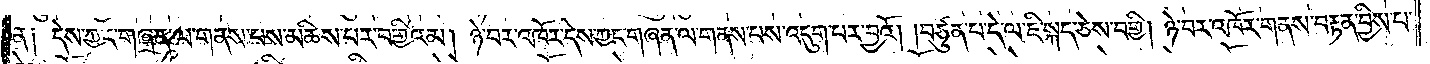ན༏ དེས་ཀྱང་གཞན་ལ་གནས་པས་མཆིས་པར་བགྱིའམ། ཉེ་བར་འཁོར་དེས་ཀྱང་གཞན་ལ་གནས་པས་འདུག་པར་བྱའོ། །བཙུན་པ་དེ་ལ་ཇི་སྐད་ཅེས་བགྱི། ཉེ་བར་འཁོར་གནས་བརྟན་བྱིས་པ་
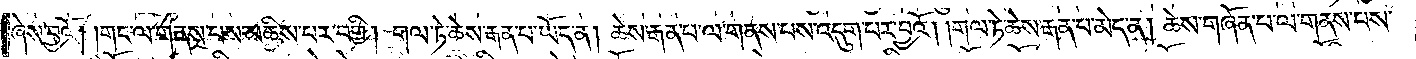ཞེས་བྱའོ། །གང་ལ་གནས་པས་མཆིས་པར་བགྱི། གལ་ཏེ་ཆེས་རྒན་པ་ཡོད་ན། ཆེས་རྒན་པ་ལ་གནས་པས་འདུག་པར་བྱའོ། །གལ་ཏེ་ཆེས་རྒན་པ་མེད་ན། ཆེས་གཞོན་པ་ལ་གནས་པས་
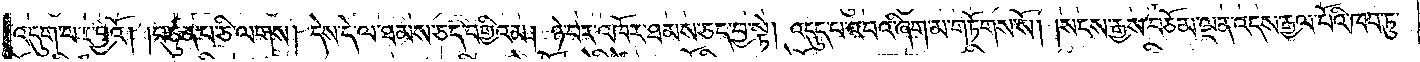འདུག་པར་བྱའོ། །བཙུན་པ་ཅི་ལགས། དེས་དེ་ལ་ཐམས་ཅད་བགྱིའམ། ཉེ་བར་འཁོར་ཐམས་ཅད་བྱ་སྟེ། འདུད་པ་འབའ་ཞིག་མ་གཏོགས་སོ། །སངས་རྒྱས་བཅོམ་ལྡན་འདས་རྒྱལ་པོའི་ཁབ་ཏུ་
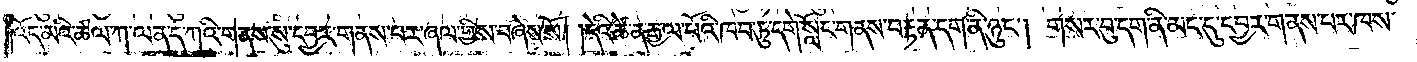འོད་མའི་ཚལ་ཀ་ལན་དཀའི་གནས་སུ་དབྱར་གནས་པར་ཞལ་གྱིས་བཞེས་སོ། །དེའི་ཚེ་ན་རྒྱལ་པོའི་ཁབ་ཏུ་དགེ་སློང་གནས་བརྟན་དག་ནི་ཉུང༌། གསར་བུ་དག་ནི་མང་དུ་དབྱར་གནས་པར་ཁས་
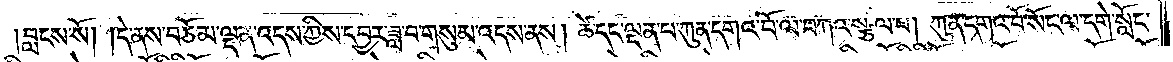བླངས་སོ། །དེ་ནས་བཅོམ་ལྡན་འདས་ཀྱིས་དབྱར་ཟླ་བ་གསུམ་འདས་ནས། ཚེ་དང་ལྡན་པ་ཀུན་དགའ་བོ་ལ་བཀའ་སྩལ་པ། ཀུན་དགའ་བོ་སོང་ལ་དགེ་སློང་
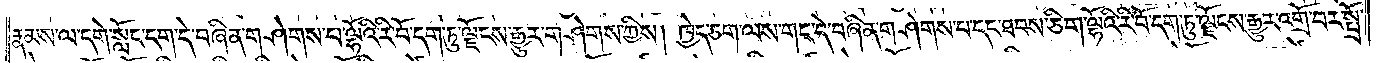རྣམས་ལ་དགེ་སློང་དག་དེ་བཞིན་གཤེགས་པ་ལྷོའི་རི་བོ་དག་ཏུ་ལྗོངས་རྒྱུར་གཤེགས་ཀྱིས། ཁྱེད་ཅག་ལས་གང་དེ་བཞིན་གཤེགས་པ་དང་ཐབས་ཅིག་ལྷོའི་རི་བོ་དག་ཏུ་ལྗོངས་རྒྱུར་འགྲོ་བར་སྤྲོ་
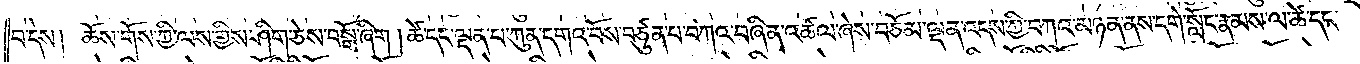བ་དེས། ཆོས་གོས་ཀྱི་ལས་གྱིས་ཤིག་ཅེས་བསྒོ་ཞིག །ཚེ་དང་ལྡན་པ་ཀུན་དགའ་བོས་བཙུན་པ་བཀའ་བཞིན་འཚལ་ཞེས་བཅོམ་ལྡན་འདས་ཀྱི་བཀའ་མཉན་ནས་དགེ་སློང་རྣམས་ལ་ཚེ་དང་
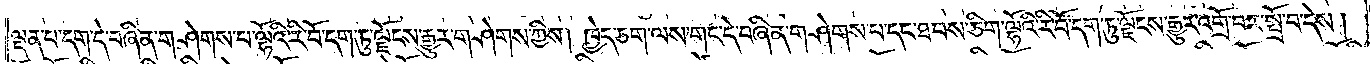ལྡན་པ་དག་དེ་བཞིན་གཤེགས་པ་ལྷོའི་རི་བོ་དག་ཏུ་ལྗོངས་རྒྱུར་གཤེགས་ཀྱིས། ཁྱེད་ཅག་ལས་གང་དེ་བཞིན་གཤེགས་པ་དང་ཐབས་ཅིག་ལྷོའི་རི་བོ་དག་ཏུ་ལྗོངས་རྒྱུར་འགྲོ་བར་སྤྲོ་བ་དེས།
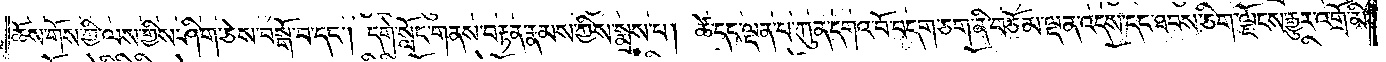ཆོས་གོས་ཀྱི་ལས་གྱིས་ཤིག་ཅེས་བསྒོ་བ་དང༌། དགེ་སློང་གནས་བརྟན་རྣམས་ཀྱིས་སྨྲས་པ། ཚེ་དང་ལྡན་པ་ཀུན་དགའ་བོ་བདག་ཅག་ནི་བཅོམ་ལྡན་འདས་དང་ཐབས་ཅིག་ལྗོངས་རྒྱུར་འགྲོ་མི་
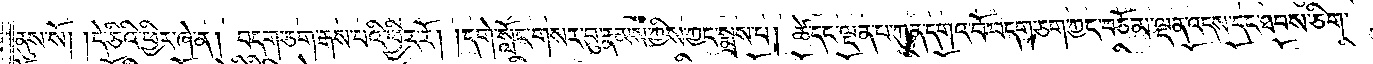ནུས་སོ། །དེ་ཅིའི་ཕྱིར་ཞེ་ན། བདག་ཅག་རྒས་པའི་ཕྱིར་རོ། །དགེ་སློང་གསར་བུ་རྣམས་ཀྱིས་ཀྱང་སྨྲས་པ། ཚེ་དང་ལྡན་པ་ཀུན་དགའ་བོ་བདག་ཅག་ཀྱང་བཅོམ་ལྡན་འདས་དང་ཐབས་ཅིག་
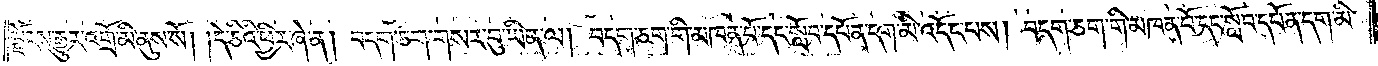ལྗོངས་རྒྱུར་འགྲོ་མི་ནུས་སོ། །དེ་ཅིའི་ཕྱིར་ཞེ་ན། བདག་ཅག་གསར་བུ་ཡིན་ལ། བདག་ཅག་གི་མཁན་པོ་དང་སློབ་དཔོན་དག་མི་འདོད་པས། བདག་ཅག་གི་མཁན་པོ་དང་སློབ་དཔོན་དག་མི་
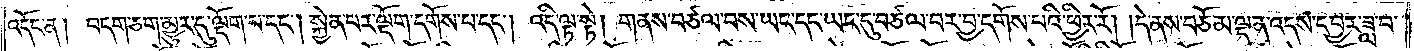འདོང་ན། བདག་ཅག་མྱུར་དུ་ལྡོག་པ་དང༌། སྐྱེན་པར་ལྡོག་དགོས་པ་དང༌། འདི་ལྟ་སྟེ། གནས་བཙལ་བས་ཡང་དང་ཡང་དུ་བཙལ་བར་བྱ་དགོས་པའི་ཕྱིར་རོ། །དེ་ནས་བཅོམ་ལྡན་འདས་དབྱར་ཟླ་བ་
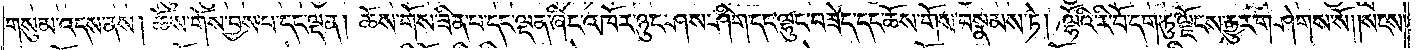གསུམ་འདས་ནས། ཆོས་གོས་བྱས་པ་དང་ལྡན། ཆོས་གོས་ཟིན་པ་དང་ལྡན་ཞིང་འཁོར་ཉུང་ཤས་ཤིག་དང་ལྷུང་བཟེད་དང་ཆོས་གོས་བསྣམས་ཏེ། ལྷོའི་རི་བོ་དག་ཏུ་ལྗོངས་རྒྱུར་གཤེགས་སོ། །སངས་
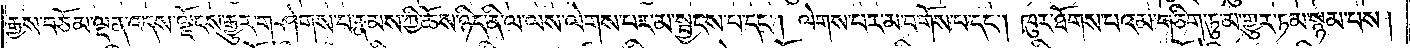རྒྱས་བཅོམ་ལྡན་འདས་ལྗོངས་རྒྱུར་གཤེགས་པ་རྣམས་ཀྱི་ཆོས་ཉིད་ནི་ལ་ལས་ལེགས་པར་མ་སྦྱངས་པ་དང༌། ལེགས་པར་མ་བགོས་པ་དང༌། ཁུར་ཐོགས་པའམ་གཅིག་ཏུ་མ་གྱུར་ཏམ་སྙམ་པས།
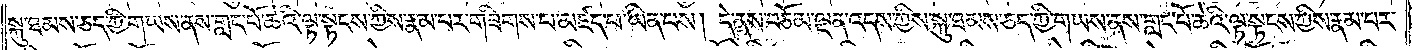སྐུ་ཐམས་ཅད་ཀྱི་གཡས་ནས་གླང་པོ་ཆེའི་ལྟ་སྟངས་ཀྱིས་རྣམ་པར་གཟིགས་པ་མཛད་པ་ཡིན་པས། དེ་ནས་བཅོམ་ལྡན་འདས་ཀྱིས་སྐུ་ཐམས་ཅད་ཀྱི་གཡས་ནས་གླང་པོ་ཆེའི་ལྟ་སྟངས་ཀྱིས་རྣམ་པར་
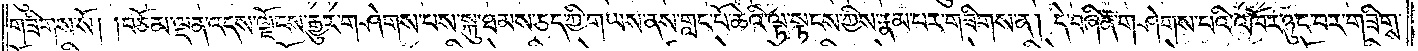གཟིགས་སོ། །བཅོམ་ལྡན་འདས་ལྗོངས་རྒྱུར་གཤེགས་པས་སྐུ་ཐམས་ཅད་ཀྱི་གཡས་ནས་གླང་པོ་ཆེའི་ལྟ་སྟངས་ཀྱིས་རྣམ་པར་གཟིགས་ན། དེ་བཞིན་གཤེགས་པའི་འཁོར་ཉུང་བར་གཟིགས་
